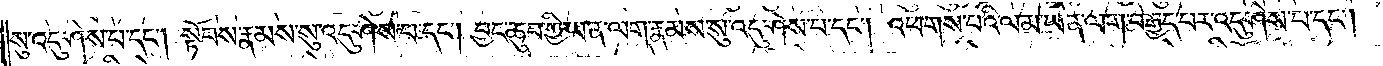སུ་འདུ་ཤེས་པ་དང༌། སྟོབས་རྣམས་སུ་འདུ་ཤེས་པ་དང༌། བྱང་ཆུབ་ཀྱི་ཡན་ལག་རྣམས་སུ་འདུ་ཤེས་པ་དང༌། འཕགས་པའི་ལམ་ཡན་ལག་བརྒྱད་པར་འདུ་ཤེས་པ་དང༌།
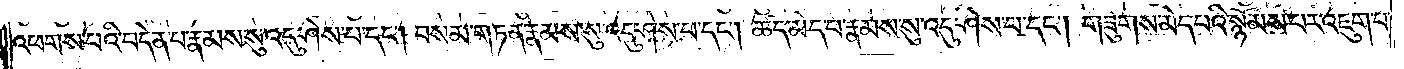འཕགས་པའི་བདེན་པ་རྣམས་སུ་འདུ་ཤེས་པ་དང༌། བསམ་གཏན་རྣམས་སུ་འདུ་ཤེས་པ་དང༌། ཚད་མེད་པ་རྣམས་སུ་འདུ་ཤེས་པ་དང༌། གཟུགས་མེད་པའི་སྙོམས་པར་འཇུག་པ་
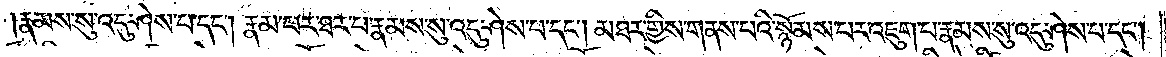རྣམས་སུ་འདུ་ཤེས་པ་དང༌། རྣམ་པར་ཐར་པ་རྣམས་སུ་འདུ་ཤེས་པ་དང༌། མཐར་གྱིས་གནས་པའི་སྙོམས་པར་འཇུག་པ་རྣམས་སུ་འདུ་ཤེས་པ་དང༌།
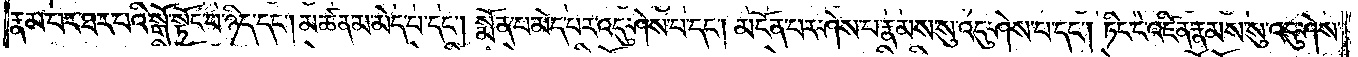རྣམ་པར་ཐར་པའི་སྒོ་སྟོང་པ་ཉིད་དང༌། མཚན་མ་མེད་པ་དང༌། སྨོན་པ་མེད་པར་འདུ་ཤེས་པ་དང༌། མངོན་པར་ཤེས་པ་རྣམས་སུ་འདུ་ཤེས་པ་དང༌། ཏིང་ངེ་འཛིན་རྣམས་སུ་འདུ་ཤེས་
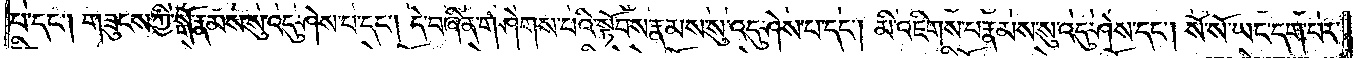པ་དང༌། གཟུངས་ཀྱི་སྒོ་རྣམས་སུ་འདུ་ཤེས་པ་དང༌། དེ་བཞིན་གཤེགས་པའི་སྟོབས་རྣམས་སུ་འདུ་ཤེས་པ་དང༌། མི་འཇིགས་པ་རྣམས་སུ་འདུ་ཤེས་པ་དང༌། སོ་སོ་ཡང་དག་པར་
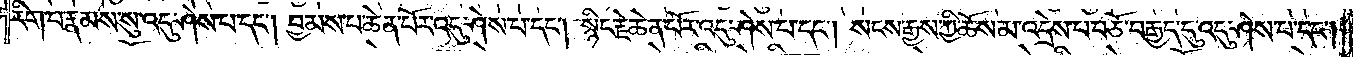རིག་པ་རྣམས་སུ་འདུ་ཤེས་པ་དང༌། བྱམས་པ་ཆེན་པོར་འདུ་ཤེས་པ་དང༌། སྙིང་རྗེ་ཆེན་པོར་འདུ་ཤེས་པ་དང༌། སངས་རྒྱས་ཀྱི་ཆོས་མ་འདྲེས་པ་བཅོ་བརྒྱད་དུ་འདུ་ཤེས་པ་དང༌།
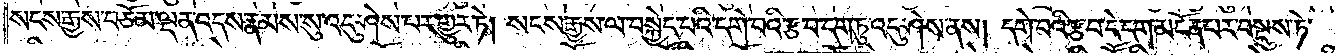སངས་རྒྱས་བཅོམ་ལྡན་འདས་རྣམས་སུ་འདུ་ཤེས་པར་གྱུར་ཏེ། སངས་རྒྱས་ལ་བསྐྱེད་པའི་དགེ་བའི་རྩ་བ་དག་ཏུ་འདུ་ཤེས་ནས། དགེ་བའི་རྩ་བ་དེ་དག་མངོན་པར་བསྡུས་ཏེ་
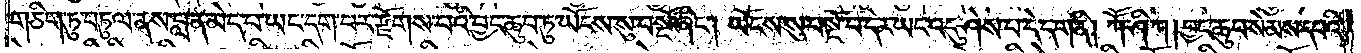གཅིག་ཏུ་བཏུལ་ནས་བླ་ན་མེད་པ་ཡང་དག་པར་རྫོགས་པའི་བྱང་ཆུབ་ཏུ་ཡོངས་སུ་བསྔོ་ཞིང༌། ཡོངས་སུ་བསྔོ་བ་དེར་ཡང་འདུ་ཤེས་པ་དེ་དག་ནི། ཀཽ་ཤི་ཀ། བྱང་ཆུབ་སེམས་དཔའི་
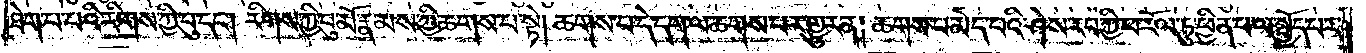ཐེག་པའི་རིགས་ཀྱི་བུ་དང༌། རིགས་ཀྱི་བུ་མོ་རྣམས་ཀྱི་ཆགས་པ་སྟེ། ཆགས་པ་དེ་དག་ལ་ཆགས་པར་གྱུར་ན། ཆགས་པ་མེད་པའི་ཤེས་རབ་ཀྱི་ཕ་རོལ་ཏུ་ཕྱིན་པ་ལ་སྤྱོད་པར་
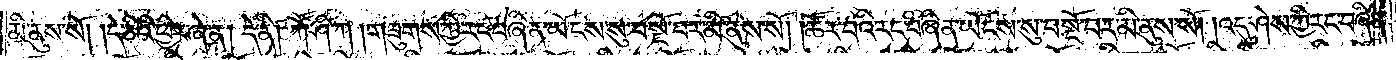མི་ནུས་སོ། །དེ་ཅིའི་ཕྱིར་ཞེ་ན། དེ་ནི། ཀཽ་ཤི་ཀ། གཟུགས་ཀྱི་རང་བཞིན་ཡོངས་སུ་བསྔོ་བར་མི་ནུས་སོ། །ཚོར་བའི་རང་བཞིན་ཡོངས་སུ་བསྔོ་བར་མི་ནུས་སོ། །འདུ་ཤེས་ཀྱི་རང་བཞིན་
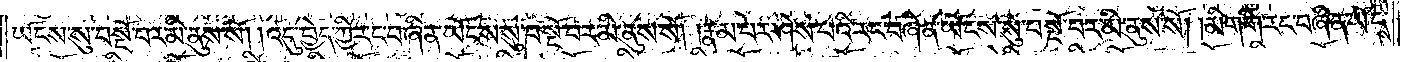ཡོངས་སུ་བསྔོ་བར་མི་ནུས་སོ། །འདུ་བྱེད་ཀྱི་རང་བཞིན་ཡོངས་སུ་བསྔོ་བར་མི་ནུས་སོ། །རྣམ་པར་ཤེས་པའི་རང་བཞིན་ཡོངས་སུ་བསྔོ་བར་མི་ནུས་སོ། །མིག་གི་རང་བཞིན་ཡོངས་
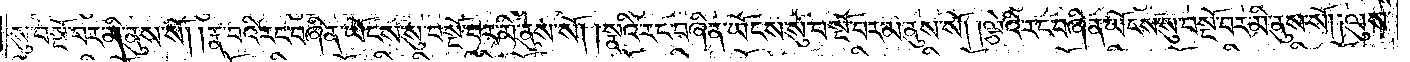སུ་བསྔོ་བར་མི་ནུས་སོ། །རྣ་བའི་རང་བཞིན་ཡོངས་སུ་བསྔོ་བར་མི་ནུས་སོ། །སྣའི་རང་བཞིན་ཡོངས་སུ་བསྔོ་བར་མི་ནུས་སོ། །ལྕེའི་རང་བཞིན་ཡོངས་སུ་བསྔོ་བར་མི་ནུས་སོ། །ལུས་
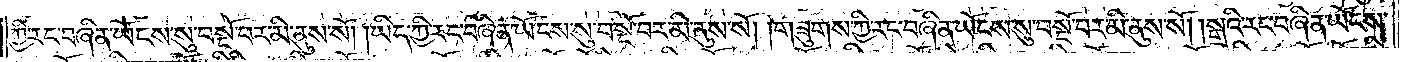ཀྱི་རང་བཞིན་ཡོངས་སུ་བསྔོ་བར་མི་ནུས་སོ། །ཡིད་ཀྱི་རང་བཞིན་ཡོངས་སུ་བསྔོ་བར་མི་ནུས་སོ། །གཟུགས་ཀྱི་རང་བཞིན་ཡོངས་སུ་བསྔོ་བར་མི་ནུས་སོ། །སྒྲའི་རང་བཞིན་ཡོངས་
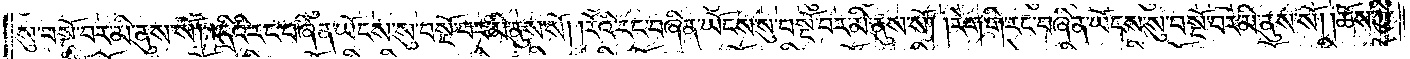སུ་བསྔོ་བར་མི་ནུས་སོ། །དྲིའི་རང་བཞིན་ཡོངས་སུ་བསྔོ་བར་མི་ནུས་སོ། །རེའི་རང་བཞིན་ཡོངས་སུ་བསྔོ་བར་མི་ནུས་སོ། །རེག་གི་རང་བཞིན་ཡོངས་སུ་བསྔོ་བར་མི་ནུས་སོ། །ཆོས་ཀྱི་
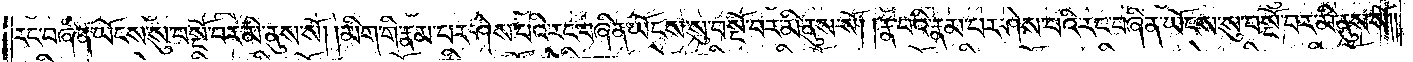རང་བཞིན་ཡོངས་སུ་བསྔོ་བར་མི་ནུས་སོ། །མིག་གི་རྣམ་པར་ཤེས་པའི་རང་བཞིན་ཡོངས་སུ་བསྔོ་བར་མི་ནུས་སོ། །རྣ་བའི་རྣམ་པར་ཤེས་པའི་རང་བཞིན་ཡོངས་སུ་བསྔོ་བར་མི་ནུས་སོ། །
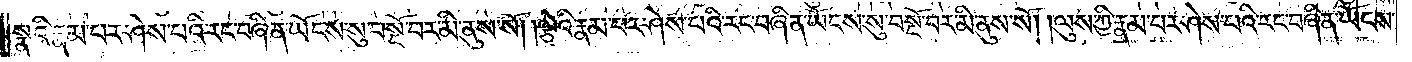སྣའི་རྣམ་པར་ཤེས་པའི་རང་བཞིན་ཡོངས་སུ་བསྔོ་བར་མི་ནུས་སོ། །ལྕེའི་རྣམ་པར་ཤེས་པའི་རང་བཞིན་ཡོངས་སུ་བསྔོ་བར་མི་ནུས་སོ། །ལུས་ཀྱི་རྣམ་པར་ཤེས་པའི་རང་བཞིན་ཡོངས་
